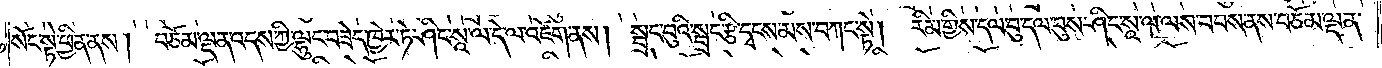སོང་སྟེ་ཕྱིན་ནས། བཅོམ་ལྡན་འདས་ཀྱི་ལྷུང་བཟེད་ཁྱེར་ཏེ་ཤིང་སཱ་ལ་དེ་ལ་འཛེག་ནས། སྦྲང་བུའི་སྦྲང་རྩི་དྭངས་མས་བཀང་སྟེ། རིམ་གྱིས་དལ་བུ་དལ་བུས་ཤིང་སཱ་ལ་ལས་བབས་ནས་བཅོམ་ལྡན་
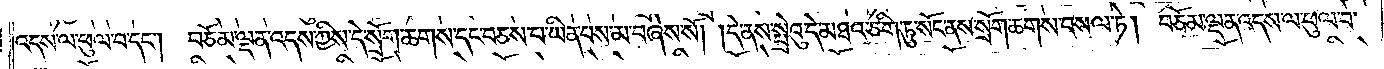འདས་ལ་ཕུལ་བ་དང༌། བཅོམ་ལྡན་འདས་ཀྱིས་དེ་སྲོག་ཆགས་དང་བཅས་པ་ཡིན་པས་མ་བཞེས་སོ། །དེ་ནས་སྤྲེའུ་དེ་མཐའ་གཅིག་ཏུ་སོང་ནས་སྲོག་ཆགས་བསལ་ཏེ། བཅོམ་ལྡན་འདས་ལ་ཕུལ་བ་
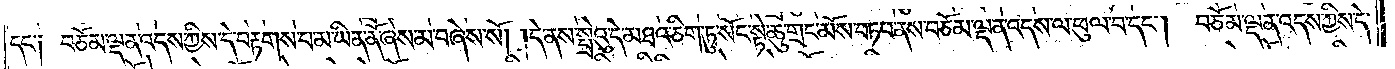དང༌། བཅོམ་ལྡན་འདས་ཀྱིས་དེ་བརྟགས་པ་མ་ཡིན་ནོ་ཞེས་མ་བཞེས་སོ། །དེ་ནས་སྤྲེའུ་དེ་མཐའ་གཅིག་ཏུ་སོང་སྟེ་ཆུ་གྲང་མོས་བཏབ་ནས་བཅོམ་ལྡན་འདས་ལ་ཕུལ་བ་དང༌། བཅོམ་ལྡན་འདས་ཀྱིས་དེ་
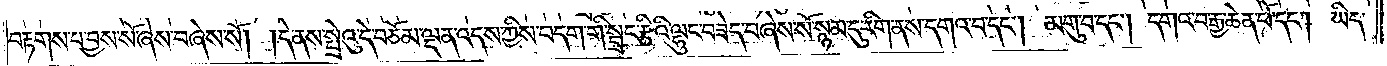བརྟགས་པ་བྱས་སོ་ཞེས་བཞེས་སོ། །དེ་ནས་སྤྲེའུ་དེ་བཅོམ་ལྡན་འདས་ཀྱིས་བདག་གི་སྦྲང་རྩིའི་ལྷུང་བཟེད་བཞེས་སོ་སྙམ་དུ་རིག་ནས་དགའ་བ་དང༌། མགུ་བ་དང༌། དགའ་བ་རྒྱ་ཆེན་པོ་དང༌། ཡིད་
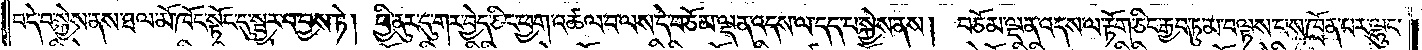བདེ་བ་སྐྱེས་ནས་ཐལ་མོ་ཁོང་སྟོང་དུ་སྦྱར་བ་བྱས་ཏེ། ཕྱི་ནུར་དུ་གར་བྱེད་ཅིང་ཕྱག་འཚལ་བ་ལས་དེ་བཅོམ་ལྡན་འདས་ལ་དད་པ་སྐྱེས་ནས། བཅོམ་ལྡན་འདས་ལ་རྟོག་ཅིང་རྒྱབ་ཏུ་མ་བལྟས་པས་ཁྲོན་པར་ལྷུང་
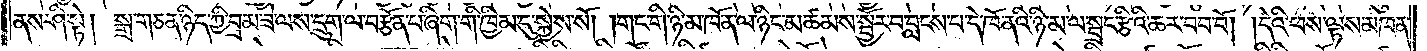ནས་ཤི་སྟེ། སྒྲ་གཅན་ཉིད་ཀྱི་བྲམ་ཟེ་ལས་དྲུག་ལ་བརྩོན་པ་ཞིག་གི་ཁྱིམ་དུ་སྐྱེས་སོ། །གང་གི་ཉི་མ་ཁོ་ན་ལ་ཉིང་མཚམས་སྦྱོར་བ་བླངས་པ་དེ་ཁོ་ནའི་ཉི་མ་ལ་སྦྲང་རྩིའི་ཆར་བབ་བོ། །དེའི་ཕས་ལྟས་མཁན་
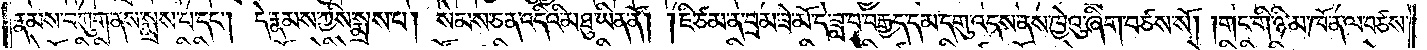རྣམས་བཀུག་ནས་སྨྲས་པ་དང༌། དེ་རྣམས་ཀྱིས་སྨྲས་པ། སེམས་ཅན་འདིའི་མཐུ་ཡིན་ནོ། །ཇི་ཙམ་ན་བྲམ་ཟེ་མོ་དེ་ཟླ་བ་བརྒྱད་དམ་དགུ་འདས་ནས་ཁྱེའུ་ཞིག་བཙས་སོ། །གང་གི་ཉི་མ་ཁོ་ན་ལ་བཙས་
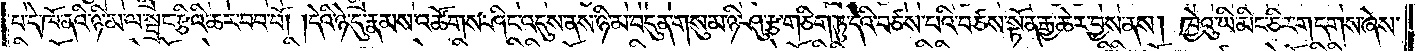པ་དེ་ཁོ་ནའི་ཉི་མ་ལ་སྦྲང་རྩིའི་ཆར་བབ་བོ། །དེའི་ཉེ་དུ་རྣམས་འཚོགས་ཤིང་འདུས་ནས་ཉི་མ་བདུན་གསུམ་ཉི་ཤུ་རྩ་གཅིག་ཏུ་དེའི་བཙས་པའི་བཙས་སྟོན་རྒྱ་ཆེར་བྱས་ནས། ཁྱེའུ་ཡི་མིང་ཅིར་གདགས་ཞེས་
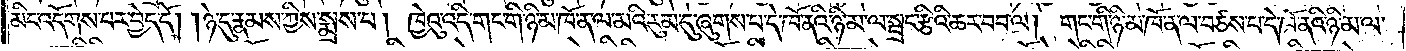མིང་འདོགས་པར་བྱེད་དོ། །ཉེ་དུ་རྣམས་ཀྱིས་སྨྲས་པ། ཁྱེའུ་འདི་གང་གི་ཉི་མ་ཁོ་ན་ལ་མའི་རུམ་དུ་ཞུགས་པ་དེ་ཁོ་ནའི་ཉི་མ་ལ་སྦྲང་རྩིའི་ཆར་བབ་ལ། གང་གི་ཉི་མ་ཁོ་ན་ལ་བཙས་པ་དེ་ཁོ་ནའི་ཉི་མ་ལ་
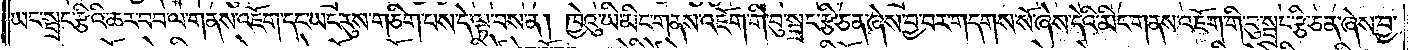ཡང་སྦྲང་རྩིའི་ཆར་བབ་ལ་གནས་འཇོག་དང་ཡང་རུས་གཅིག་པས་དེ་ལྟ་བས་ན། ཁྱེའུ་ཡི་མིང་གནས་འཇོག་གི་བུ་སྦྲང་རྩི་ཅན་ཞེས་བྱ་བར་གདགས་སོ་ཞེས་དེའི་མིང་གནས་འཇོག་གི་བུ་སྦྲང་རྩི་ཅན་ཞེས་བྱ་
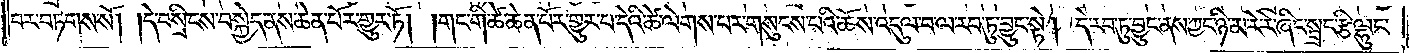བར་བཏགས་སོ། །དེ་བསྲིངས་བསྐྱེད་ནས་ཆེན་པོར་གྱུར་ཏོ། །གང་གི་ཚེ་ཆེན་པོར་གྱུར་པ་དེའི་ཚེ་ལེགས་པར་གསུངས་པའི་ཆོས་འདུལ་བ་ལ་རབ་ཏུ་བྱུང་སྟེ། དེ་རབ་ཏུ་བྱུང་ནས་ཀྱང་ཉི་མ་རེ་རེ་ཞིང་སྦྲང་རྩི་ལྷུང་
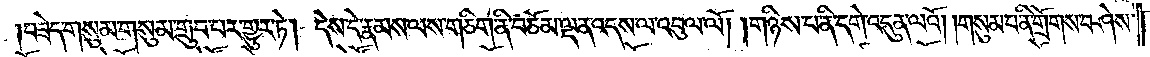བཟེད་གསུམ་གསུམ་གྲུབ་པར་གྱུར་ཏེ། དེས་དེ་རྣམས་ལས་གཅིག་ནི་བཅོམ་ལྡན་འདས་ལ་འབུལ་ལོ། །གཉིས་པ་ནི་དགེ་འདུན་ལའོ། །གསུམ་པ་ནི་གྲོགས་བཤེས་
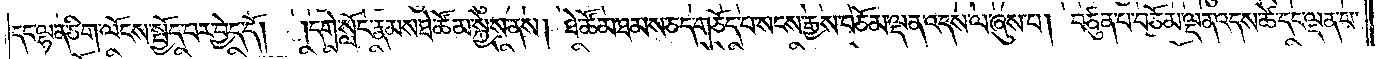དང་ལྷན་ཅིག་ལོངས་སྤྱོད་པར་བྱེད་དོ། །དགེ་སློང་རྣམས་ཐེ་ཚོམ་སྐྱེས་ནས། ཐེ་ཚོམ་ཐམས་ཅད་གཅོད་པ་སངས་རྒྱས་བཅོམ་ལྡན་འདས་ལ་ཞུས་པ། བཙུན་པ་བཅོམ་ལྡན་འདས་ཚེ་དང་ལྡན་པ་
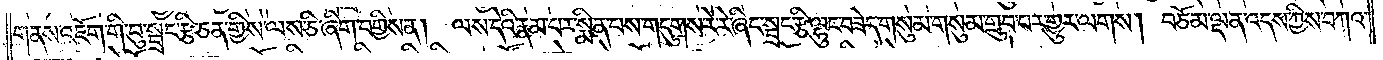གནས་འཇོག་གི་བུ་སྦྲང་རྩི་ཅན་གྱིས་ལས་ཅི་ཞིག་བགྱིས་ན། ལས་དེའི་རྣམ་པར་སྨིན་པས་གདུགས་རེ་རེ་ཞིང་སྦྲང་རྩི་ལྷུང་བཟེད་གསུམ་གསུམ་གྲུབ་པར་གྱུར་ལགས། བཅོམ་ལྡན་འདས་ཀྱིས་བཀའ་
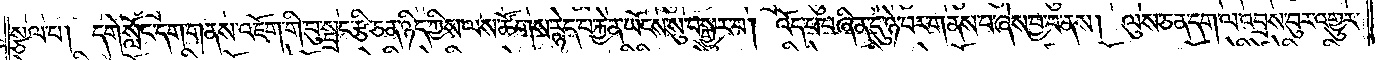སྩལ་པ། དགེ་སློང་དག་གནས་འཇོག་གི་བུ་སྦྲང་རྩི་ཅན་ཉིད་ཀྱིས་ལས་ཚོགས་རྙེད་པ་རྐྱེན་ཡོངས་སུ་བསྒྱུར་བ། འོད་པ་བཞིན་དུ་ཉེ་བར་གནས་པ་ཞེས་བྱ་བ་ནས། ལུས་ཅན་དག་ལ་འབྲས་བུར་འགྱུར་
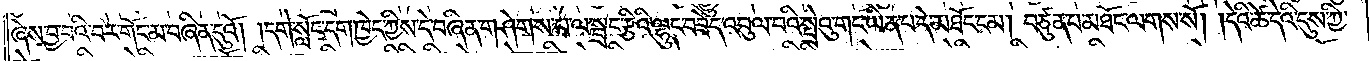ཞེས་བྱ་བའི་བར་གོང་མ་བཞིན་དུའོ། །དགེ་སློང་དག་ཁྱེད་ཀྱིས་དེ་བཞིན་གཤེགས་པ་ལ་སྦྲང་རྩིའི་ལྷུང་བཟེད་འབུལ་བའི་སྤྲེའུ་གང་ཡིན་པ་དེ་མཐོང་ངམ། བཙུན་པ་མཐོང་ལགས་སོ། །དེའི་ཚེ་དེའི་དུས་ཀྱི་
